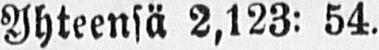Yhteensä 2,123: 54.
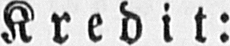Kredit:
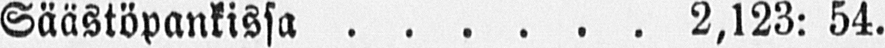Säästöpankissa 2,123: 54.
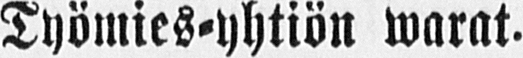d) Työmies-yhtiön warat.
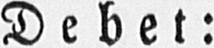Debet:
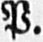P.
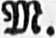M.
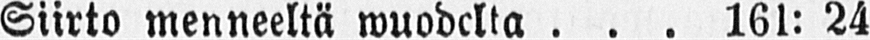Siirto menneeltä wuodelta 16l: 24
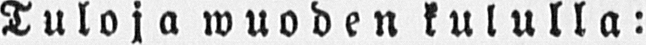Tuloja wuoden kululla:
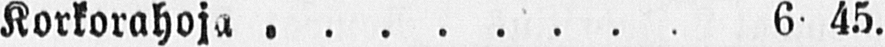Korkorahoja 6: 45.
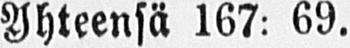Yhteensä 167: 69.
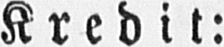Kredit:
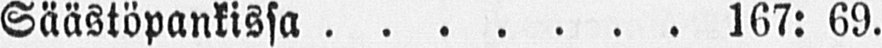Säästöpankissa 167: 69.
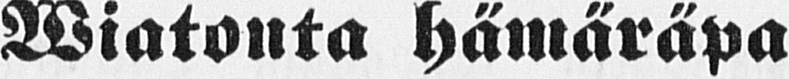Wiatonta hämäräpa-
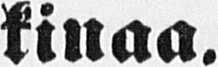kinaa.
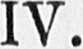IV.
